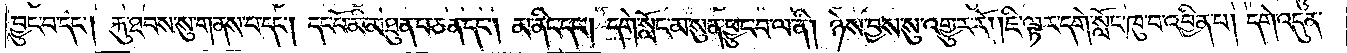བྱུང་བ་དང༌། རྐུ་ཐབས་སུ་གནས་པ་དང༌། དང་པོ་མི་མཐུན་པ་ཅན་དང༌། མ་ནིང་དང༌། དགེ་སློང་མ་སུན་ཕྱུང་བ་ལ་ནི། ཉེས་བྱས་སུ་འགྱུར་རོ། །ཇི་ལྟར་དགེ་སློང་ཁུ་བ་འབྱིན་པ། དགེ་འདུན་
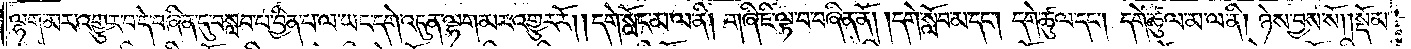ལྷག་མར་འགྱུར་བ་དེ་བཞིན་དུ་བསླབ་པ་བྱིན་པ་ལ་ཡང་དགེ་འདུན་ལྷག་མར་འགྱུར་རོ། །དགེ་སློང་མ་ལ་ནི། གཞི་ཇི་ལྟ་བ་བཞིན་ནོ། །དགེ་སློབ་མ་དང༌། དགེ་ཚུལ་དང༌། དགེ་ཚུལ་མ་ལ་ནི། ཉེས་བྱས་སོ། །སྡོམ་
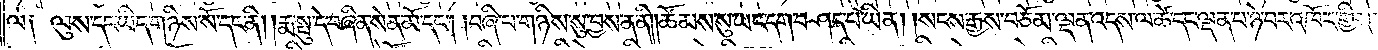ལ༑ ལུས་དང་ཡིད་གཉིས་སོ་དང་ནི། །རྨ་སྤུ་དེ་བཞིན་སེན་མོ་དང༌། །བཞི་པ་གཉིས་སུ་བྱས་ན་ནི༎ཚོམས་སུ་ཡང་དག་བཤད་པ་ཡིན། །སངས་རྒྱས་བཅོམ་ལྡན་འདས་ལ་ཚེ་དང་ལྡན་པ་ཉེ་བར་འཁོར་གྱིས་
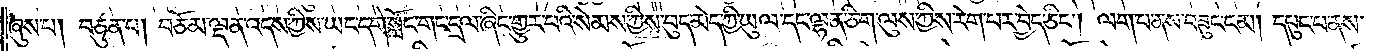ཞུས་པ། བཙུན་པ། བཅོམ་ལྡན་འདས་ཀྱིས་ཡང་དགེ་སློང་གང་དྲལ་ཞིང་གྱུར་པའི་སེམས་ཀྱིས་བུད་མེད་ཀྱི་ཡུལ་དང་ལྷན་ཅིག་ལུས་ཀྱིས་རེག་པར་བྱེད་ཅིང༌། ལག་པ་ནས་བཟུང་ངམ། དཔུང་པ་ནས་
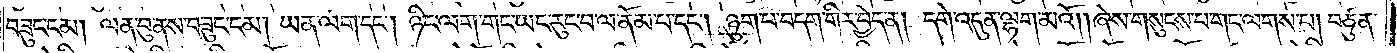བཟུང་ངམ། ལན་བུ་ནས་བཟུང་ངམ། ཡན་ལག་དང༌། ཉིང་ལག་གང་ཡང་རུང་བ་ལ་ནོམ་པ་དང༌། ཉུག་པ་བདག་གིར་བྱེད་ན། དགེ་འདུན་ལྷག་མའོ། །ཞེས་གསུངས་པ་གང་ལགས་པ། བཙུན་
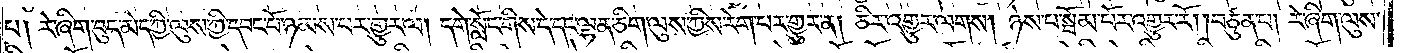པ། རེ་ཞིག་བུད་མེད་ཀྱི་ལུས་ཀྱི་དབང་པོ་ཉམས་པར་གྱུར་ལ། དགེ་སློང་གིས་དེ་དང་ལྷན་ཅིག་ལུས་ཀྱིས་རེག་པར་གྱུར་ན། ཅིར་འགྱུར་ལགས། ཉེས་པ་སྦོམ་པོར་འགྱུར་རོ། །བཙུན་པ། རེ་ཞིག་ལུས་
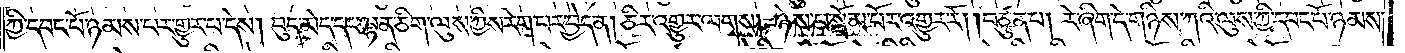ཀྱི་དབང་པོ་ཉམས་པར་གྱུར་པ་དེས། བུད་མེད་དང་ལྷན་ཅིག་ལུས་ཀྱིས་རེག་པར་བྱེད་ན། ཅིར་འགྱུར་ལགས། ཉེས་པ་སྦོམ་པོར་འགྱུར་རོ། །བཙུན་པ། རེ་ཞིག་དེ་གཉིས་ཀའི་ལུས་ཀྱི་དབང་པོ་ཉམས་
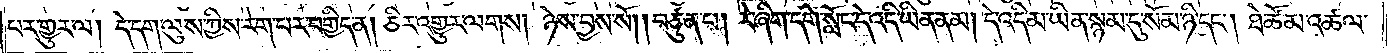པར་གྱུར་ལ། དེ་དག་ལུས་ཀྱིས་རེག་པར་བགྱིད་ན། ཅིར་འགྱུར་ལགས། ཉེས་བྱས་སོ། །བཙུན་པ། རེ་ཞིག་དགེ་སློང་དེ་འདི་ཡིན་ནམ། དེ་འདི་མ་ཡིན་སྙམ་དུ་སོམ་ཉི་དང༌། ཐེ་ཚོམ་འཚལ་
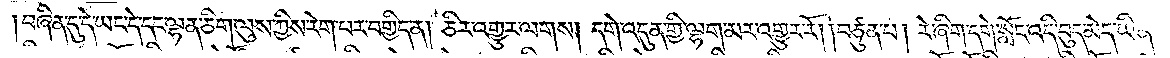བཞིན་དུ་དེ་ཡང་དེ་དང་ལྷན་ཅིག་ལུས་ཀྱིས་རེག་པར་བགྱིད་ན། ཅིར་འགྱུར་ལགས། དགེ་འདུན་གྱི་ལྷག་མར་འགྱུར་རོ། །བཙུན་པ། རེ་ཞིག་དགེ་སློང་འདི་བུད་མེད་ཡིན་
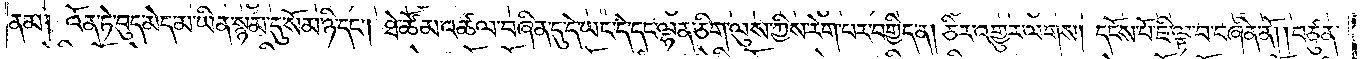ནམ། འོན་ཏེ་བུད་མེད་མ་ཡིན་སྙམ་དུ་སོམ་ཉི་དང༌། ཐེ་ཚོམ་འཚལ་བཞིན་དུ་དེ་ཡང་དེ་དང་ལྷན་ཅིག་ལུས་ཀྱིས་རེག་པར་བགྱིད་ན། ཅིར་འགྱུར་ལགས། དངོས་པོ་ཇི་ལྟ་བུ་བཞིན་ནོ། །བཙུན་
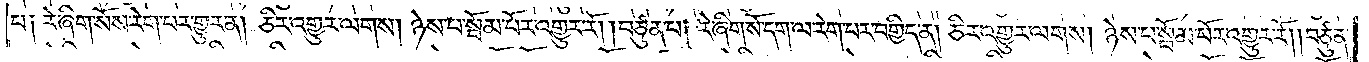པ༑ རེ་ཞིག་སོས་རེག་པར་གྱུར་ན། ཅིར་འགྱུར་ལགས། ཉེས་པ་སྦོམ་པོར་འགྱུར་རོ། །བཙུན་པ། རེ་ཞིག་སོ་དག་ལ་རེག་པར་བགྱིད་ན། ཅིར་འགྱུར་ལགས། ཉེས་པ་སྦོམ་པོར་འགྱུར་རོ། །བཙུན་
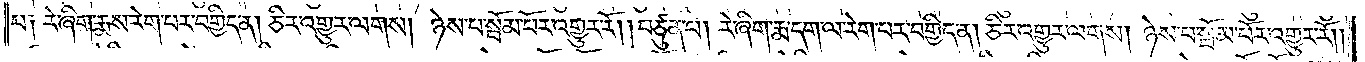པ༑ རེ་ཞིག་རྨས་རེག་པར་བགྱིད་ན། ཅིར་འགྱུར་ལགས། ཉེས་པ་སྦོམ་པོར་འགྱུར་རོ། །བཙུན་པ། རེ་ཞིག་རྨ་དག་ལ་རེག་པར་བགྱིད་ན། ཅིར་འགྱུར་ལགས། ཉེས་པ་སྦོམ་པོར་འགྱུར་རོ། །
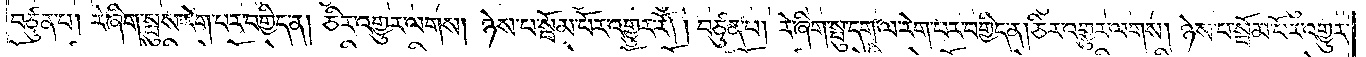བཙུན་པ། རེ་ཞིག་སྤུས་རེག་པར་བགྱིད་ན། ཅིར་འགྱུར་ལགས། ཉེས་པ་སྦོམ་པོར་འགྱུར་རོ། །བཙུན་པ། རེ་ཞིག་སྤུ་དག་ལ་རེག་པར་བགྱིད་ན། ཅིར་འགྱུར་ལགས། ཉེས་པ་སྦོམ་པོར་འགྱུར་
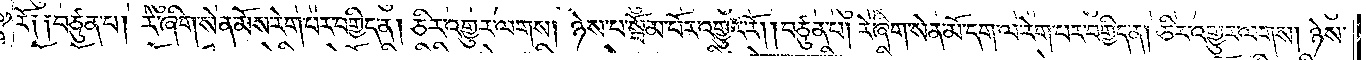རོ༑ ༑བཙུན་པ། རེ་ཞིག་སེན་མོས་རེག་པར་བགྱིད་ན། ཅིར་འགྱུར་ལགས། ཉེས་པ་སྦོམ་པོར་འགྱུར་རོ། །བཙུན་པ། རེ་ཞིག་སེན་མོ་དག་ལ་རེག་པར་བགྱིད་ན། ཅིར་འགྱུར་ལགས། ཉེས་
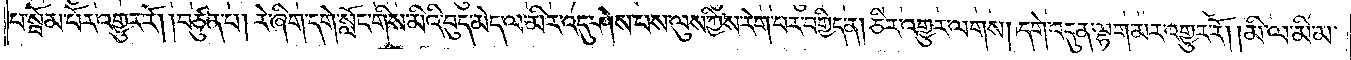པ་སྦོམ་པོར་འགྱུར་རོ། །བཙུན་པ། རེ་ཞིག་དགེ་སློང་གིས་མིའི་བུད་མེད་ལ་མིར་འདུ་ཤེས་པས་ལུས་ཀྱིས་རེག་པར་བགྱིད་ན། ཅིར་འགྱུར་ལགས། དགེ་འདུན་ལྷག་མར་འགྱུར་རོ། །མི་ལ་མི་མ་
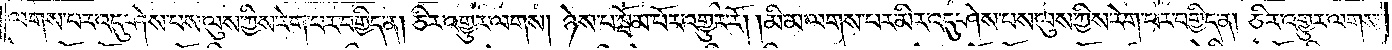ལགས་པར་འདུ་ཤེས་པས་ལུས་ཀྱིས་རེག་པར་བགྱིད་ན། ཅིར་འགྱུར་ལགས། ཉེས་པ་སྦོམ་པོར་འགྱུར་རོ། །མི་མ་ལགས་པར་མིར་འདུ་ཤེས་པས་ལུས་ཀྱིས་རེག་པར་བགྱིད་ན། ཅིར་འགྱུར་ལགས་
